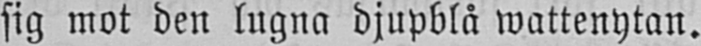sig mot den lugna djupblå wattenytan.
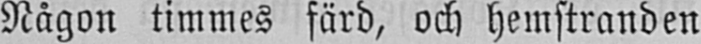Någon timmes färd, och hemstranden
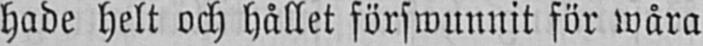hade helt och hållet förswunnit för wåra
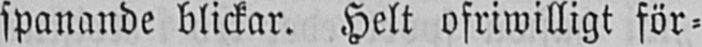spanande blickar. Helt ofriwilligt för-
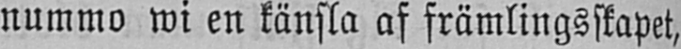nummo wi en känsla af främlingsskapet,
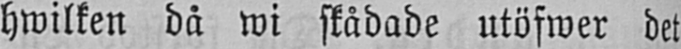hwilken då wi skådade utöfwer det
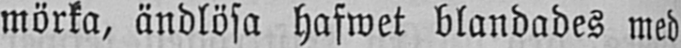mörka, ändlösa hafwet blandades med
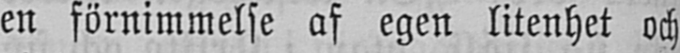en förnimmelse af egen litenhet och
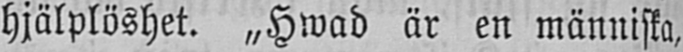hjälplöshet. „Hwad är en människa,
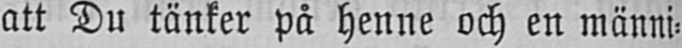att Du tänker på henne och en männi-
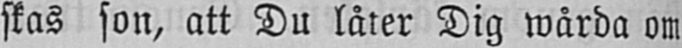skas son, att Du låter Dig wårda om
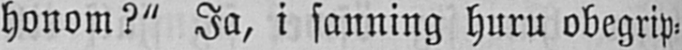honom?" Ja, i sanning huru obegrip-
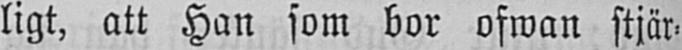ligt, att Han som bor ofwan stjär-
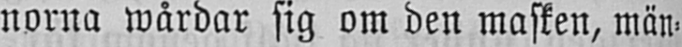norna wårdar sig om den masken, män-
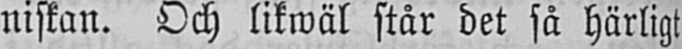niskan. Och likwäl står det så härligt
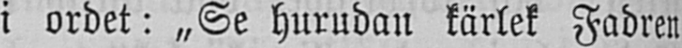i ordet: „Se hurudan kärlek Fadren
